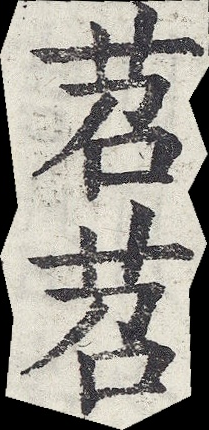苕苕
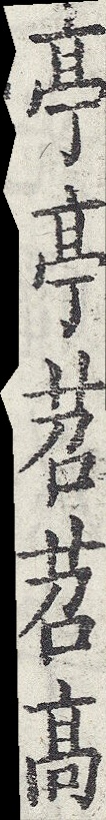亭亭苕苕高
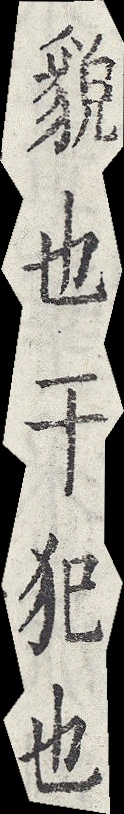貌也干犯也
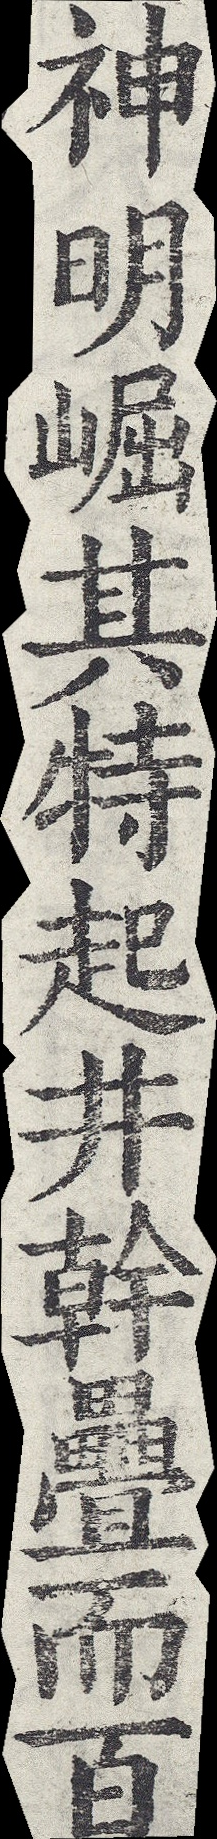神明崛其特起井幹疊而百
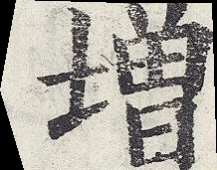增
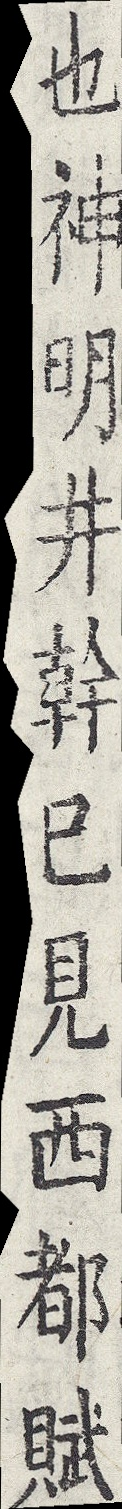也神明井幹已見西都賦
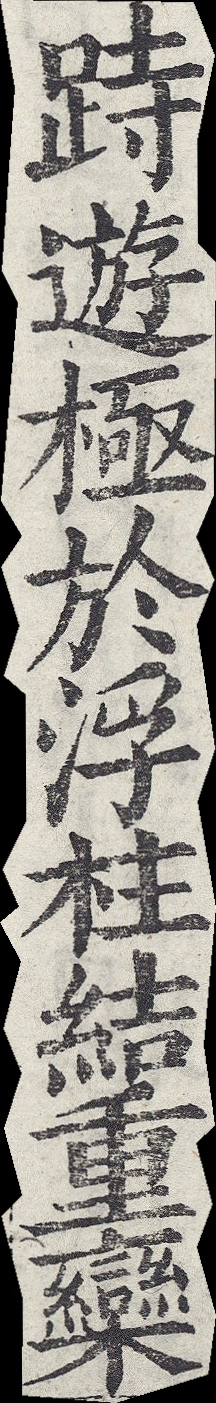跱遊極於浮柱結重欒
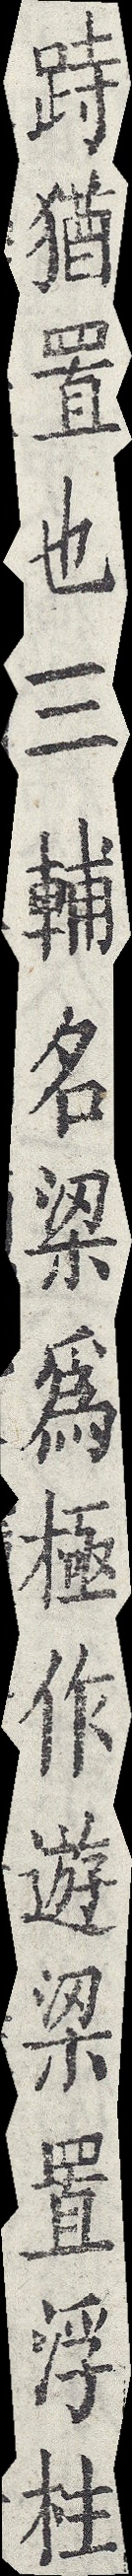跱猶置也三輔名梁為極作遊梁置浮柱
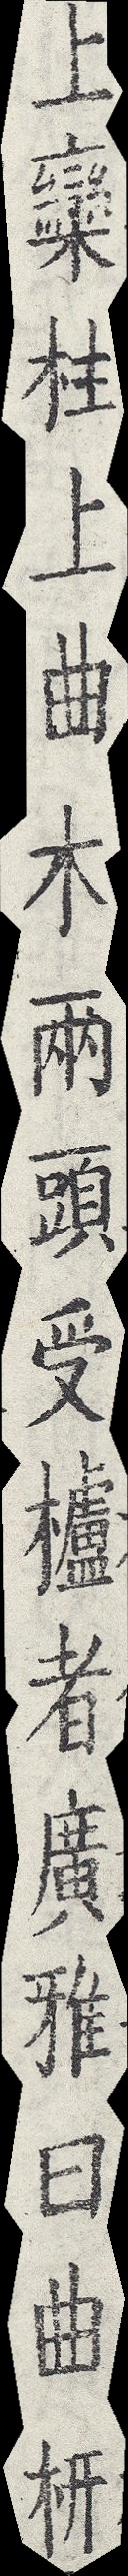上欒柱上曲木兩頭受櫨者廣雅曰曲枅
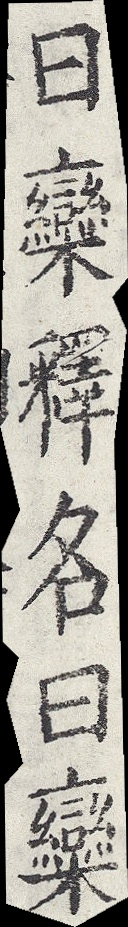體上曲拳也
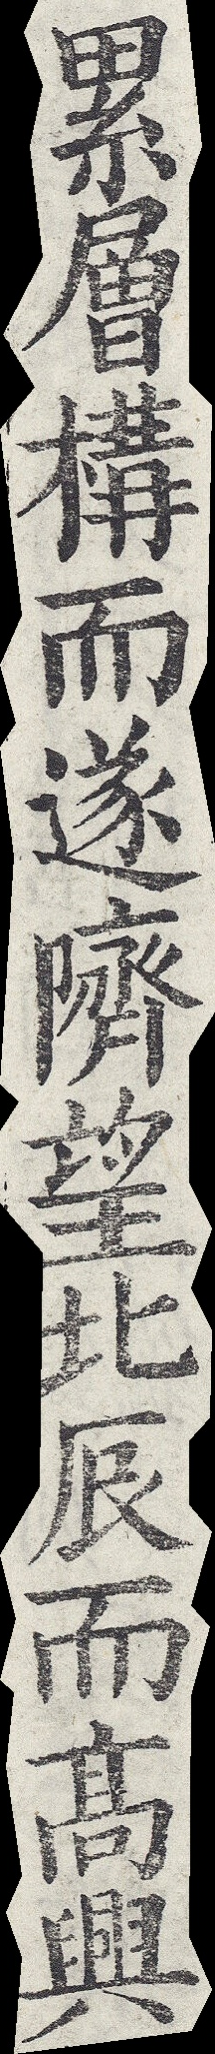累層構而遂隮望北辰而高興
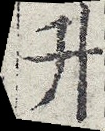升
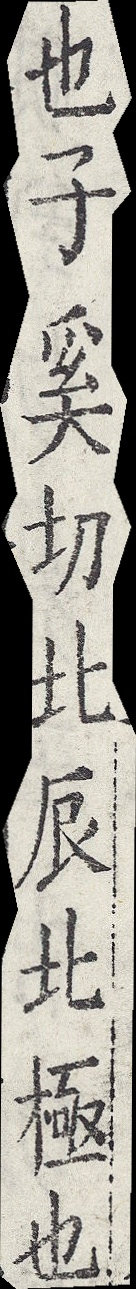也子奚切北辰北極也
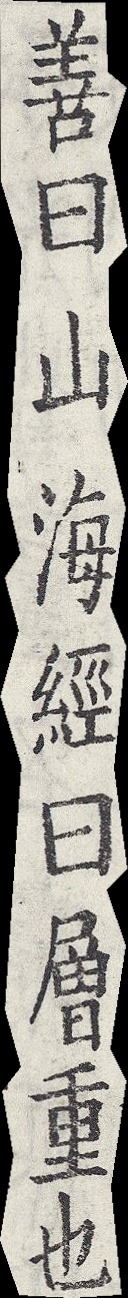善曰山海經曰層重也
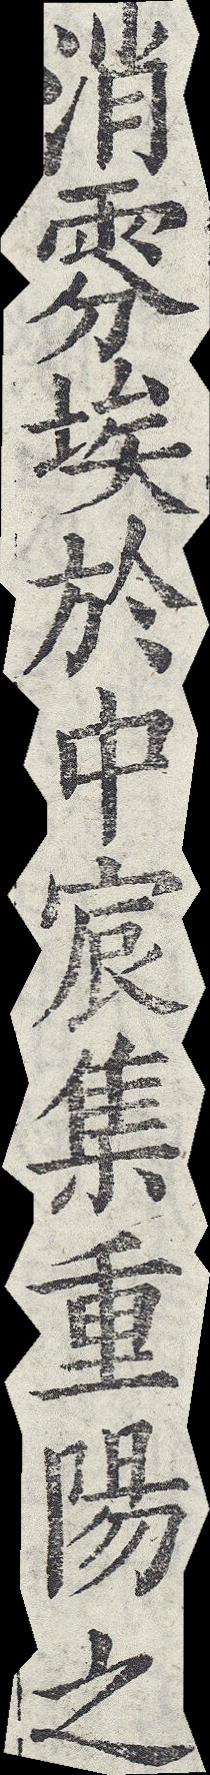消雰埃於中宸集重陽之
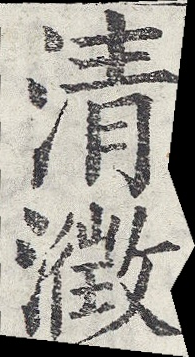清澂
